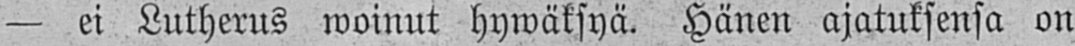- ei Lutherus woinut hywäksyä. Hänen ajatuksensa on
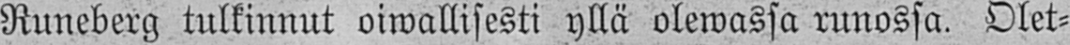Runeberg tulkinnut oiwallisesti yllä olewassa runossa. Olet-
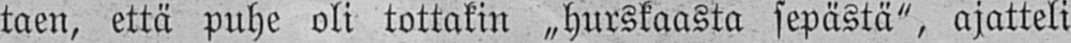taen, että puhe oli tottakin „hurskaasta sepästä", ajatteli
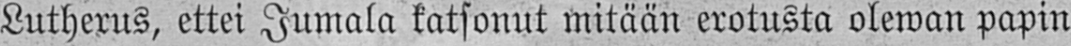Lutherus, ettei Jumala katsonut mitään erotusta olewan papin
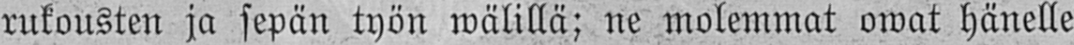rukousten ja sepän työn wälillä; ne molemmat owat hänelle
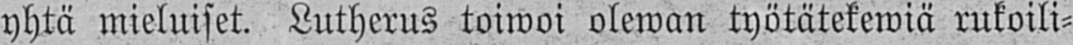yhtä mieluiset. Lutherus toiwoi olewan työtätekewiä rukoili-
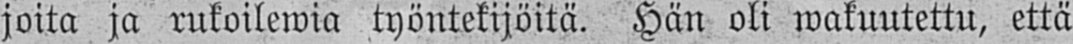joita ja rukoilewia työntekijöitä. Hän oli wakuutettu, että
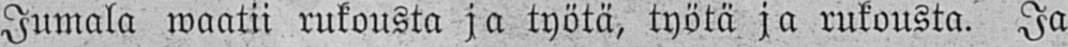Jumala waatii rukousta ja työtä, työtä ja rukousta. Ja
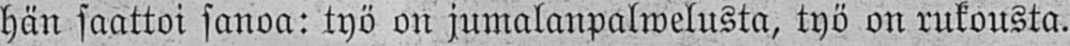hän saattoi sanoa: työ on jumalanpalwelusta, työ on rukousta.
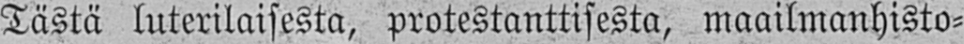Tästä luterilaisesta, protestanttisesta, maailmanhisto-
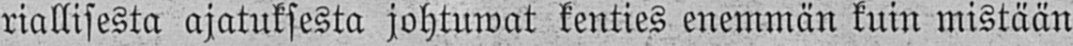riallisesta ajatuksesta johtuwat kenties enemmän kuin mistään
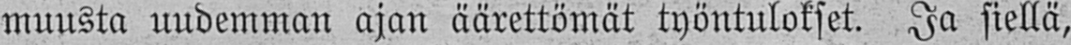muusta uudemman ajan äärettömät työntulokset. Ja siellä,
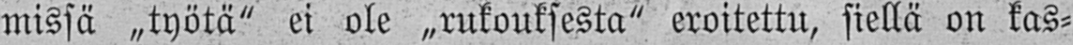missä „työtä" ei ole „rukouksesta" eroitettu, siellä on kas-
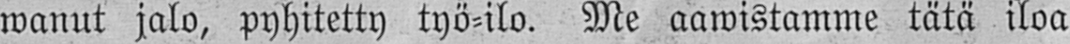wanut jalo, pyhitetty työ-ilo. Me aawistamme tätä iloa
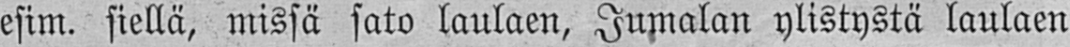esim. siellä, missä sato laulaen, Jumalan ylistystä laulaen
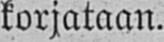korjataan.
